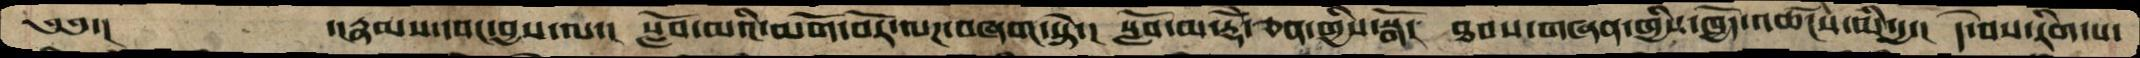༄༅་།      ་།རྣམས་དབང་བྱས་ལ་།  སློབ་མའི་མགོ་བོར་ལཌ་བཞག་སྟེ་།  སློབ་མ་རྡོེ་ཅན་གྱིས་སྒོ།  ཐབས་གཞན་ཁྱིས་ཁྱོད་འཚངས་མི་དྱ་།  དེ་བས་རིག་པ་
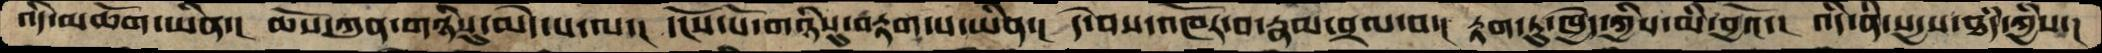འདི་མཆོག་ཡིན་།  ཆོས་ཀུན་གཉིསུ་མེད་པ་ལ་།  དངོས་པོ་གཉིསུ་བརྟག་པ་ཡིན་།  དེ་བས་འཁོར་བ་རྣམ་བྲལ་བ་།  རྟག་ཏུ་ཁྱེད་ཀྱིས་མི་བྱའོ་།  འདི་ནི་སདྱས་ཐདཾ་ཀྱིས་།
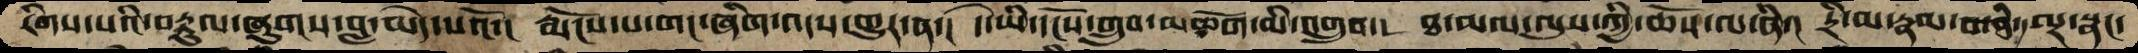རིགས་པའི་བརྟུལ་ཞུགས་བླ་མེད་པའོ་།  རྨོངས་པ་གང་ཞིག་འདས་གྱུར་ན་།  དེ་ཡི་དངོས་གྲུབ་མཆོག་མི་འགྲུབ་།  ཐ་མལ་ལུས་ཀྱི་ཆོས་ལ་ནི་།  དྲི་མ་རྣམ་བ་ནི་ལྔ་སྣང་
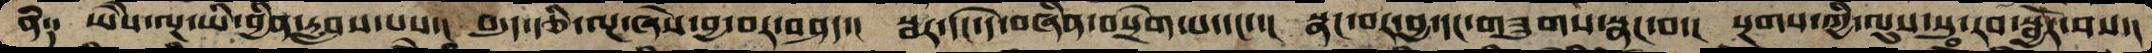ནི༑  ཡཻས་ལྔ་ཡི་བྱིན་རླབས་པས་།  བདུད་རྩི་ལྔ་ཞེས་བྱ་བར་བཤད་།  སྦར་དང་དེ་བཞིན་བསྲེག་པ་དང་་།  སྣང་བར་བྱ་དང་གཟུགས་སྣང་བ་།  སྔགས་ཀྱི་ལུས་སུ་རབ་སྦྱོར་བས་།
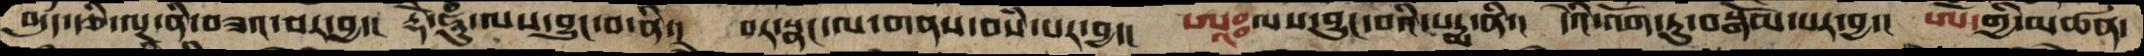བདུད་རྩི་ལྔ་ནི་བཟའ་བར་བྱ་།  རྡོེ་ཧཱུཾ་ལས་བྱུང་བ་ནི་།  བར་སྣང་ལ་གནས་བསཾ་པར་བྱ་།  ཨཱཿལས་བྱུང་བའི་པདྨ་ནི་།  དེའི་འོག་ཏུ་བསྒོམ་པར་བྱ་།  ཨོཾ་གྱི་མཚན་
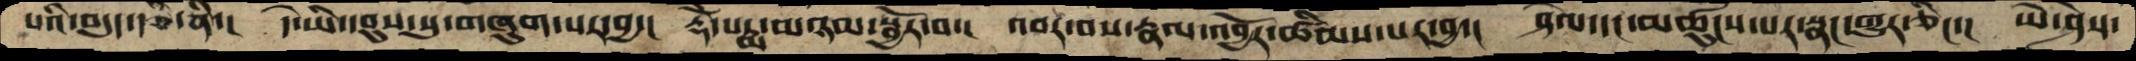པའི་བདུད་རྩི་ནི་།  དེ་ཡི་དབུས་སུ་གཞུག་པར་བྱ་།  རྡོེ་པདྨ་མཉམ་སྦྱོར་བ་།  འབར་བས་རྣལ་འབྱོར་ཚིམས་པར་བྱ་།  ཤེལ་དང་མཚུངས་པར་སྣང་གྱུར་ཅིང་།  ཡེ་ཤེས་
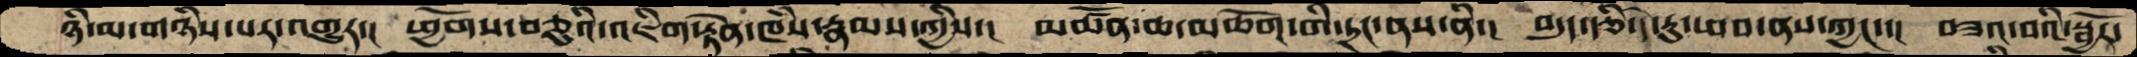ཉི་མ་གཉིས་པར་འགྱུར་།  ཕྱོགས་བཅུའི་འཇིག་རྟེན་ཁཾས་རྣམས་ཀྱིས་།  མཚོན་ཆ་མཆོག་གི་དྲང་ནས་ནི་།  བདུད་རྩི་དེ་རུ་ཕབ་ནས་ཀྱང་་།  བཟའ་བའི་སྦྱོར་
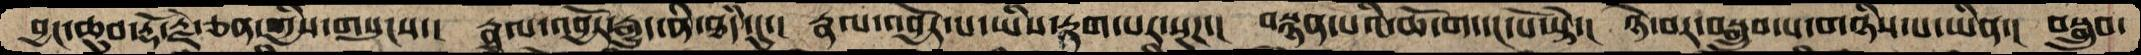བྱང་ཆུབ་རྡོ་རྗེ་ཅན་གྱིས་གསུངས་།  རྣལ་འབྱོར་རྒྱུད་ནི་ཐཾད་དུ་།  རྣལ་འབྱོར་པ་ཡིས་རྟག་པར་སྔཌ་།  བསྙན་པའི་ཆོ་ག་དང་པོ་སྟེ་།  ཉེ་བར་བསྒྲུབ་པ་གཉིས་པ་ཡིན་།  བསྒྲུབ་
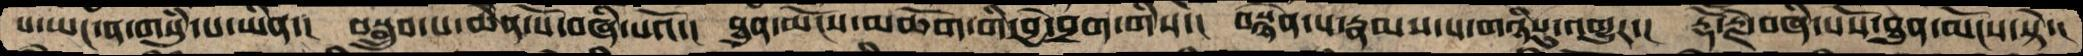པ་ཡང་ན་གསུཾ་པ་ཡིན་།  བསྒྲུབ་པ་ཆེན་པོ་བཞི་པའོ་།  ཐུན་མོངས་མཆོག་གི་བྱེ་བྲག་གིས་།  བསྙེན་པ་རྣམས་པ་གཉིསུ་འགྱུར་།  རྡོ་རྗེ་བཞི་པོས་ཐུན་མོངས་སྟེ་།
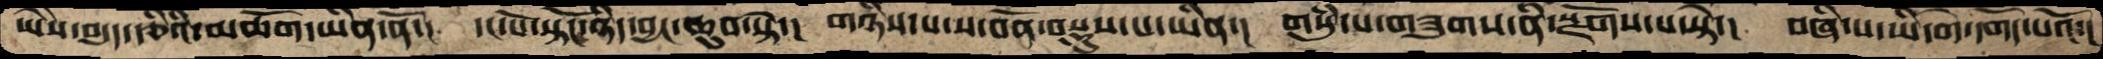ཡཻས་བདུད་རྩིའི་མཆོག་ཡིན་ནོ་།  དང་པོ་སྟོང་ཉིད་བྱང་ཆུབ་སྟེ་།  གཉིས་པ་ས་བོན་བསྡུས་པ་ཡིན་།  གསུཾ་པ་གཟུགས་ནི་སྫོགས་པ་སྟེ་།  བཞི་པ་ཡི་གེ་དགོད་པའོ་།
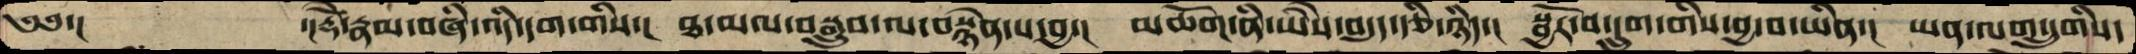༄༅་།        ་།རྡོེ་རྣམ་བཞི་འདི་དག་གིས་། ཐ་མལ་བསྒྲུབ་ལ་བསྙེན་པ་བྱ་།  མཆོག་ནི་ཡཻས་བདུད་རྩི་ཉིད་།  སྦྱོར་བ་དྲུག་གིས་བྱ་བ་ཡིན་།  ཡན་ལག་དྲུགིས་
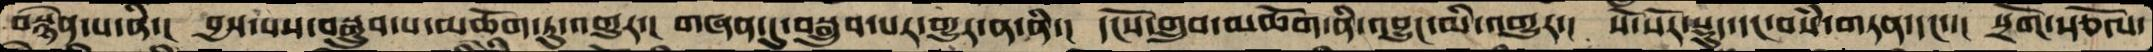བསྙེན་པ་ནི་།  བྱས་པས་བསྒྲུབ་པ་མཆོག་ཏུ་འགྱུར་།  གཞན་དུ་བསྒྲུབ་པར་གྱུར་ན་ནི་།  དངོས་གྲུབ་མཆོག་ནི་འབྱུང་མི་འགྱུར་།  སོ་སོར་སྡུད་དང་བསཾ་གཏན་དང་།  སྲོག་སྩོལ་
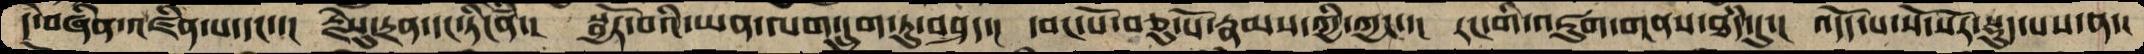དེ་བཞིན་འཛིན་པ་དང་་།  རྗེསུ་དྲན་དང་ཏིངེཛིན་།  སྦྱོར་བའི་ཡན་ལག་དྲུག་ཏུ་བཤད་།  དབང་པོ་བཅུ་པོ་རྣམས་ཀྱི་ཀྱང་་།  རང་གི་འཇུག་གནས་ཐཾད་དུ་།  འདོད་པ་སོ་སོར་སྡུད་པས་ན་།
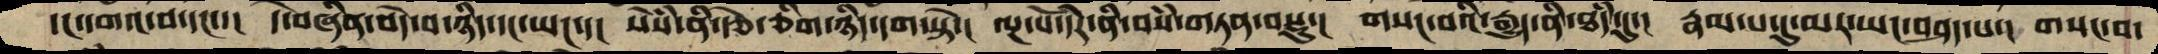དང་དགའ་བ་དང་་།  དེ་བཞིན་བདེ་བ་ཉིད་དང་ཡང་་།  སེཾས་ནི་རྩེ་ཅིག་ཉིད་དག་སྟེ་།  ལྔ་པོ་དེར་ནི་བསཾ་གཏན་བསྡུ་།  གསང་བའི་རྒྱུད་ནི་ཐཾད་དུ་།  རྣམ་པ་དུ་མར་ཡང་བཤད་པ་།  གསང་བ་
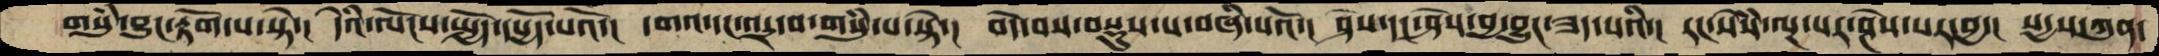གསུཾ་བྱུང་རྟོག་པ་སྟེ་།  དེའི་ལོངས་སྤྱོད་དཔྱོད་པའོ་།  དགའ་དང་འདྲ་བ་གསུཾ་པ་སྟེ་།  བདེ་བས་བསྡུས་པ་བཞི་པའོ་།  ཤེས་དང་ཤེས་བྱ་བྱུང་ཟད་པའི་།  རང་སེསཾ་ལྔ་པར་ཤེས་པར་བྱ་།  སདྱས་ཀུན་
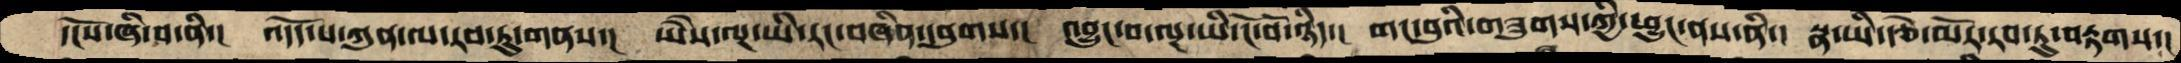དངོས་ཞི་བ་ནི་།  འདོད་པ་ཀུན་ལ་རབ་ཏུ་གནས་།  ཡཻས་ལྔ་ཡི་རང་བཞིན་དབུགས་།  འབྱུང་བ་ལྔ་ཡི་ངོ་བོ་ཉིད་།  གང་བུའི་གཟུགས་ཀྱི་ཕྱུང་ནས་ནི་།  སྣ་ཡི་རྩེ་མོར་རབ་ཏུ་བརྟགས་།
